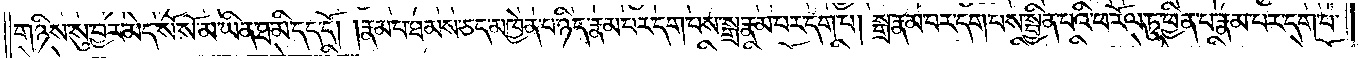གཉིས་སུ་བྱར་མེད་སོ་སོ་མ་ཡིན་ཐ་མི་དད་དོ། །རྣམ་པ་ཐམས་ཅད་མཁྱེན་པ་ཉིད་རྣམ་པར་དག་པས་སྒྲ་རྣམ་པར་དག་པ། སྒྲ་རྣམ་པར་དག་པས་སྦྱིན་པའི་ཕ་རོལ་ཏུ་ཕྱིན་པ་རྣམ་པར་དག་པ་
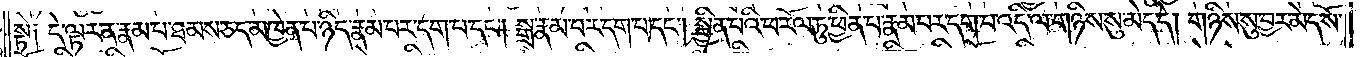སྟེ༑ དེ་ལྟར་ན་རྣམ་པ་ཐམས་ཅད་མཁྱེན་པ་ཉིད་རྣམ་པར་དག་པ་དང༌། སྒྲ་རྣམ་པར་དག་པ་དང༌། སྦྱིན་པའི་ཕ་རོལ་ཏུ་ཕྱིན་པ་རྣམ་པར་དག་པ་འདི་ལ་གཉིས་སུ་མེད་དེ། གཉིས་སུ་བྱར་མེད་སོ་
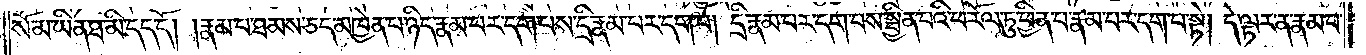སོ་མ་ཡིན་ཐ་མི་དད་དོ། །རྣམ་པ་ཐམས་ཅད་མཁྱེན་པ་ཉིད་རྣམ་པར་དག་པས་དྲི་རྣམ་པར་དག་པ། དྲི་རྣམ་པར་དག་པས་སྦྱིན་པའི་ཕ་རོལ་ཏུ་ཕྱིན་པ་རྣམ་པར་དག་པ་སྟེ། དེ་ལྟར་ན་རྣམ་པ་
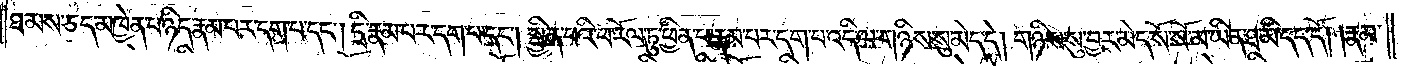ཐམས་ཅད་མཁྱེན་པ་ཉིད་རྣམ་པར་དག་པ་དང༌། དྲི་རྣམ་པར་དག་པ་དང༌། སྦྱིན་པའི་ཕ་རོལ་ཏུ་ཕྱིན་པ་རྣམ་པར་དག་པ་འདི་ལ་གཉིས་སུ་མེད་དེ། གཉིས་སུ་བྱར་མེད་སོ་སོ་མ་ཡིན་ཐ་མི་དད་དོ། །རྣམ་
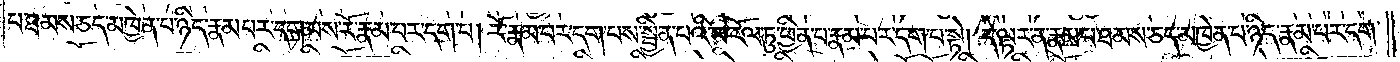པ་ཐམས་ཅད་མཁྱེན་པ་ཉིད་རྣམ་པར་དག་པས་རོ་རྣམ་པར་དག་པ། རོ་རྣམ་པར་དག་པས་སྦྱིན་པའི་ཕ་རོལ་ཏུ་ཕྱིན་པ་རྣམ་པར་དག་པ་སྟེ། དེ་ལྟར་ན་རྣམ་པ་ཐམས་ཅད་མཁྱེན་པ་ཉིད་རྣམ་པར་དག་
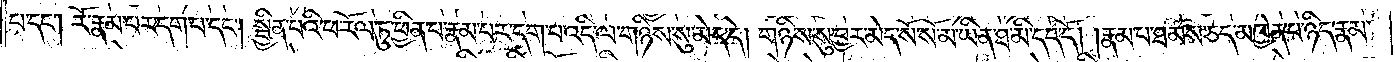པ་དང༌། རོ་རྣམ་པར་དག་པ་དང༌། སྦྱིན་པའི་ཕ་རོལ་ཏུ་ཕྱིན་པ་རྣམ་པར་དག་པ་འདི་ལ་གཉིས་སུ་མེད་དེ། གཉིས་སུ་བྱར་མེད་སོ་སོ་མ་ཡིན་ཐ་མི་དད་དོ། །རྣམ་པ་ཐམས་ཅད་མཁྱེན་པ་ཉིད་རྣམ་
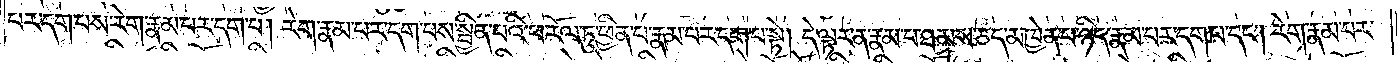པར་དག་པས་རེག་རྣམ་པར་དག་པ། རེག་རྣམ་པར་དག་པས་སྦྱིན་པའི་ཕ་རོལ་ཏུ་ཕྱིན་པ་རྣམ་པར་དག་པ་སྟེ། དེ་ལྟར་ན་རྣམ་པ་ཐམས་ཅད་མཁྱེན་པ་ཉིད་རྣམ་པར་དག་པ་དང༌། རེག་རྣམ་པར་
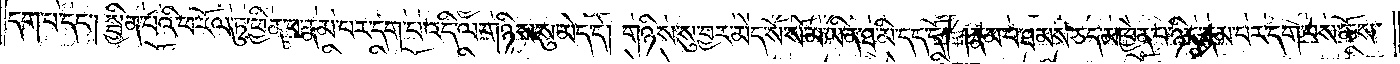དག་པ་དང༌། སྦྱིན་པའི་ཕ་རོལ་ཏུ་ཕྱིན་པ་རྣམ་པར་དག་པ་འདི་ལ་གཉིས་སུ་མེད་དེ། གཉིས་སུ་བྱར་མེད་སོ་སོ་མ་ཡིན་ཐ་མི་དད་དོ། །རྣམ་པ་ཐམས་ཅད་མཁྱེན་པ་ཉིད་རྣམ་པར་དག་པས་ཆོས་
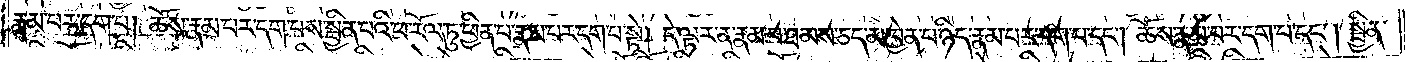རྣམ་པར་དག་པ། ཆོས་རྣམ་པར་དག་པས་སྦྱིན་པའི་ཕ་རོལ་ཏུ་ཕྱིན་པ་རྣམ་པར་དག་པ་སྟེ། དེ་ལྟར་ན་རྣམ་པ་ཐམས་ཅད་མཁྱེན་པ་ཉིད་རྣམ་པར་དག་པ་དང༌། ཆོས་རྣམ་པར་དག་པ་དང༌། སྦྱིན་
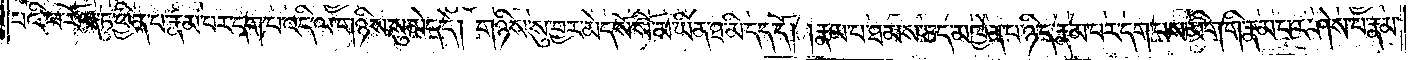པའི་ཕ་རོལ་ཏུ་ཕྱིན་པ་རྣམ་པར་དག་པ་འདི་ལ་གཉིས་སུ་མེད་དེ། གཉིས་སུ་བྱར་མེད་སོ་སོ་མ་ཡིན་ཐ་མི་དད་དོ། །རྣམ་པ་ཐམས་ཅད་མཁྱེན་པ་ཉིད་རྣམ་པར་དག་པས་མིག་གི་རྣམ་པར་ཤེས་པ་རྣམ་
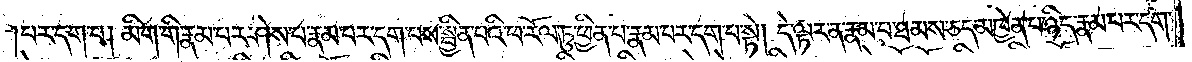པར་དག་པ། མིག་གི་རྣམ་པར་ཤེས་པ་རྣམ་པར་དག་པས་སྦྱིན་པའི་ཕ་རོལ་ཏུ་ཕྱིན་པ་རྣམ་པར་དག་པ་སྟེ། དེ་ལྟར་ན་རྣམ་པ་ཐམས་ཅད་མཁྱེན་པ་ཉིད་རྣམ་པར་དག་
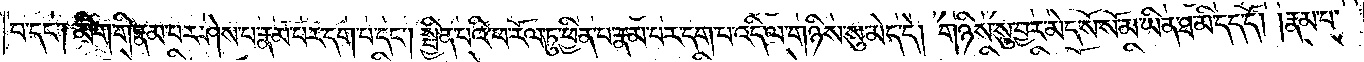པ་དང༌། མིག་གི་རྣམ་པར་ཤེས་པ་རྣམ་པར་དག་པ་དང༌། སྦྱིན་པའི་ཕ་རོལ་ཏུ་ཕྱིན་པ་རྣམ་པར་དག་པ་འདི་ལ་གཉིས་སུ་མེད་དེ། གཉིས་སུ་བྱར་མེད་སོ་སོ་མ་ཡིན་ཐ་མི་དད་དོ། །རྣམ་པ་
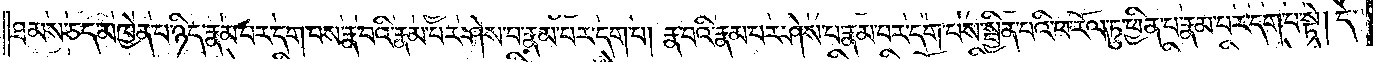ཐམས་ཅད་མཁྱེན་པ་ཉིད་རྣམ་པར་དག་པས་རྣ་བའི་རྣམ་པར་ཤེས་པ་རྣམ་པར་དག་པ། རྣ་བའི་རྣམ་པར་ཤེས་པ་རྣམ་པར་དག་པས་སྦྱིན་པའི་ཕ་རོལ་ཏུ་ཕྱིན་པ་རྣམ་པར་དག་པ་སྟེ། དེ་
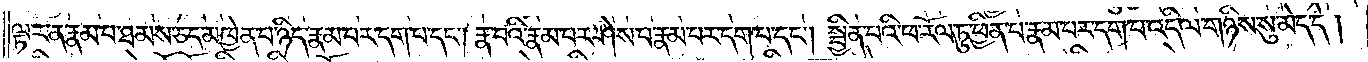ལྟར་ན་རྣམ་པ་ཐམས་ཅད་མཁྱེན་པ་ཉིད་རྣམ་པར་དག་པ་དང༌། རྣ་བའི་རྣམ་པར་ཤེས་པ་རྣམ་པར་དག་པ་དང༌། སྦྱིན་པའི་ཕ་རོལ་ཏུ་ཕྱིན་པ་རྣམ་པར་དག་པ་འདི་ལ་གཉིས་སུ་མེད་དེ།
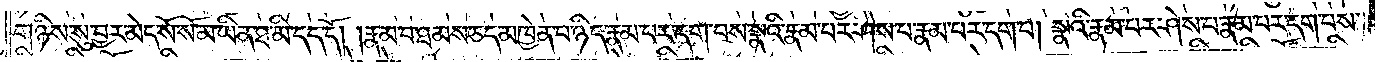གཉིས་སུ་བྱར་མེད་སོ་སོ་མ་ཡིན་ཐ་མི་དད་དོ། །རྣམ་པ་ཐམས་ཅད་མཁྱེན་པ་ཉིད་རྣམ་པར་དག་པས་སྣའི་རྣམ་པར་ཤེས་པ་རྣམ་པར་དག་པ། སྣའི་རྣམ་པར་ཤེས་པ་རྣམ་པར་དག་པས་
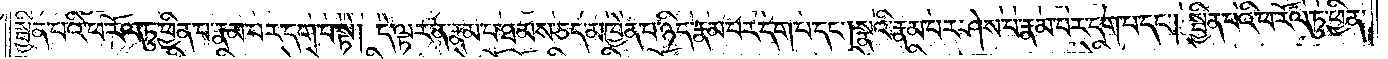སྦྱིན་པའི་ཕ་རོལ་ཏུ་ཕྱིན་པ་རྣམ་པར་དག་པ་སྟེ། དེ་ལྟར་ན་རྣམ་པ་ཐམས་ཅད་མཁྱེན་པ་ཉིད་རྣམ་པར་དག་པ་དང༌། སྣའི་རྣམ་པར་ཤེས་པ་རྣམ་པར་དག་པ་དང༌། སྦྱིན་པའི་ཕ་རོལ་ཏུ་ཕྱིན་
